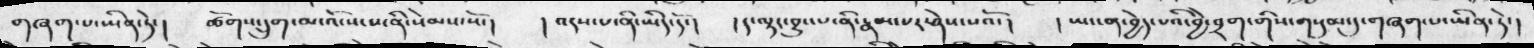གཞག་པ་ཡིན་ཏེ་།  ཚོགས་དྲུག་མ་འོངས་པ་ནི་སེམས་སོ་།  །འདས་པ་ནི་ཡིད་དོ་།  །ད་ལྟར་བྱུང་པ་ནི་རྣམ་པར་ཤེས་པའོ་།  །ཡང་ན་བྱེད་པའི་བྱེ་བྲག་གིས་གསུམ་དུ་གཞག་པ་ཡིན་ཏེ་།
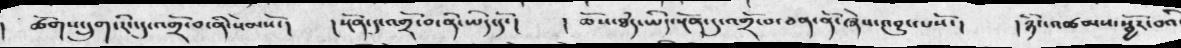།   ཚོགས་དྲུག་རིང་དུ་འགྲོ་བ་ནི་སེམསོ་།  །སྔོན་དུ་འགྲོ་བ་ནི་ཡིད་དོ་།  །ཆོས་ཐཾད་ཡིད་སྔོན་དུ་འགྲོ་བ་ཅན་ནི་ཞེས་འབྱུང་པསོ་།  །ཉིང་འཚམས་སྦྱོར་བའི
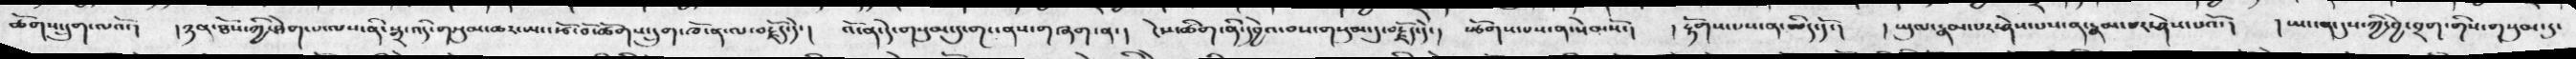ཚོགས་དྲུག་ལའོ་།  །ཉན་ཐོས་ཀྱི་ཐེག་པ་ལས་ནི་སྒྲ་འདི་གསུམ་ཆར་ཡང་རྩོ་བོ་ཚོགས་དྲུག་ཁོ་ན་ལ་བརྗོད་དེ་། འོ་ན་དེ་གསུམ་དུ་གང་ནས་གཞག་ན་། ངེས་ཚིག་གི་དབྱེ་བས་གསུམ་དུ་བརྗོད་དེ་།  སྩོགས་པས་ན་སེམསོ་། །རྟོགས་པས་ན་ཡིད་དོ་།  །ཡུལ་རྣམ་པར་ཤེས་པས་ན་རྣམ་པར་ཤེས་པའོ་།  །ཡང་ན་དུས་ཀྱི་བྱེ་བྲག་གིས་གསུམ་དུ་
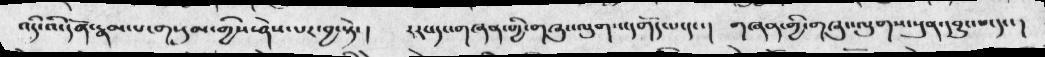འདི་འི་དོན་རྣམ་པ་གསུམ་གྱིས་ཤེས་པར་བྱ་སྟེ་།  །རང་དང་གཞན་གྱི་གཞུང་ལུགས་དགོད་པ་དང་།  གཞན་གྱི་གཞུང་ལུགས་སུན་དབྱུང་བ་དང་།
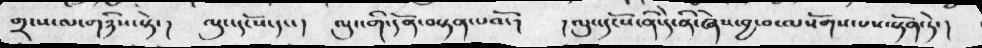གྲངས་ལ་གཉིས་སྟེ་།  ལུང་དངོས་དང་།  ལུང་གི་དོན་བསྟན་པའོ་།  །ལུང་དངོས་ནི་དེ་ནི་ཞེས་བྱ་བ་ལསོགས་པས་སྟོན་ཏེ་།
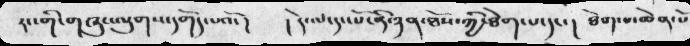རང་གི་གཞུང་ལུགས་དགོད་པའོ་།  །དེ་ལ་དང་པོ་ནི་ཉན་ཐོས་ཀྱི་ཐེག་པ་དང་།  ཐེག་པ་ཆེན་པོ
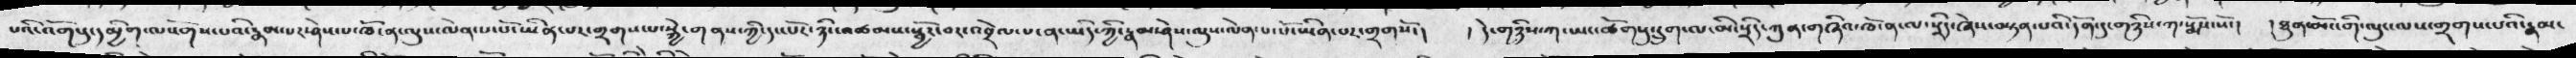པའི་འོག་དུ་དམྱིག་ལསོགས་པའི་རྣམ་པར་ཤེས་པ་ཁོ་ན་ལུས་ལེན་པ་པོ་ཡིན་པར་གྲགས་པ་སྐྱེ་གནས་ཀྱི་དང་པོར་ཉིང་འཚམས་སྦྱོར་བར་འབྲེལ་པ་ན་ཡིད་ཀྱི་རྣམ་ཤེས་ལུས་ལེན་པ་པོ་ཡིན་པར་གྲགསོ་།   ། དེ་གཉིས་ཀ་ཡང་ཚོགསུ་དྲུག་ལ་མི་སྲིད་ཀུན་གཞིའི་ཁོ་ན་ལ་སྲིད་ཞེས་བསྟན་པའི་དོན་དུ་གཉིས་ཀ་སྨོས་སོ་།  ། ཐུན་མོང་གི་ལུང་ལས་གྲགས་པའི་རྣམ་
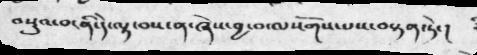བསྡུའ་བ་ནི་དེ་ལྟ་བས་ན་ཞེས་བྱ་བ་ལསོགས་པས་བསྟན་ཏེ་།
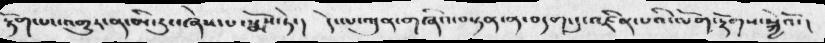རྟོག་པ་འགྱུར་ན་མི་རུང་ཞེས་པ་སྨོས་ཏེ་།  དེ་ལ་ཀུན་གཞིའ་བསྟན་ན་བདག་དུ་འཛིན་པའི་ལོག་རྟོགས་སྐྱེའོ་།
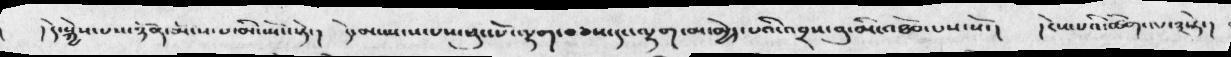།དེ་སྐྱེས་པས་ཉོན་མོངས་པ་མི་སྤོང་སྟེ་།  དེ་མ་སྤངས་པས་ཕུང་པོ་ལྷག་བཅས་དང་ལྷག་མ་མྱེད་པའི་འབྲས་བུ་མི་འཐོབ་པས་སོ་།  །ངེས་པའི་ཚིག་ལ་༣སྟེ་།
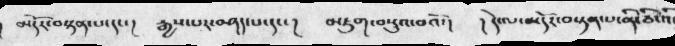མདོར་བསྟན་པ་དང་།  རྒྱས་པར་བཤད་པ་དང་།  མཇུག་བསྡུའ་བའོ་།  །དེ་ལ་མདོར་བསྟན་པ་ནི་ཅི་འི་
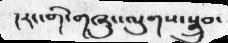།རང་གི་གཞུང་ལུགས་སྒྲུབ་
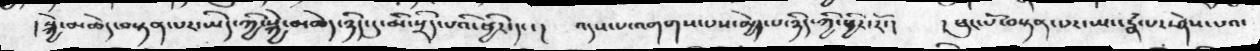།སྐྱེ་མཆེད་བསྟན་པར་ཡིད་ཀྱི་སྐྱེ་མཆེད་ཉིད་དུ་མི་སྲིད་པའི་ཕྱིར་དང་།  འདས་པ་འགག་པས་མྱེད་པ་ཉིད་ཀྱི་ཕྱིར་རོ་།  ། ཕུང་པོ་བསྟན་པར་ཡང་རྣཾ་པར་ཤེས་པའ་
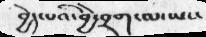བྱེད་པའི་བྱེ་བྲག་ལ་ཡང་
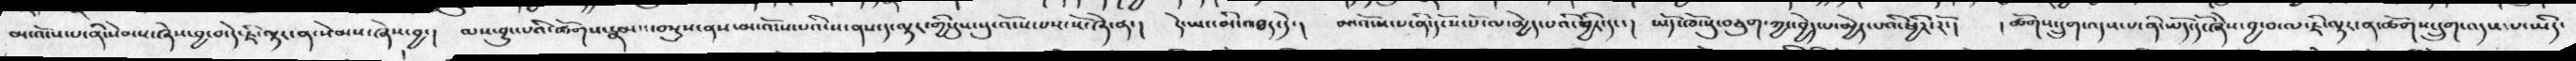མ་འོངས་པ་ནི་སེམས་ཞེས་བྱ་བ་དེ་ཇི་ལྟར་ན་སེམས་ཞེས་བྱ་།  ལས་བྱུང་པའི་ཚོགས་རྣམས་བསུས་ནས་མ་འོངས་པའི་ས་ནས་ད་ལྟར་གྱི་དུས་སུ་འོངས་པས་སོ་ཞེ་ན་།  དེ་ཡང་མི་འཐད་དེ་།  མ་འོངས་པ་ནི་དངོས་པོ་ལ་མྱེད་པའི་ཕྱིར་དང་།  ཡོད་ཁོ་སུ་བཅུག་ཀྱང་བྱེད་པ་མྱེད་པའི་ཕྱིར་རོ་།  །ཚོགས་དྲུག་འདས་པ་ནི་ཡོད་དོ་ཞེས་བྱ་བ་ལ་ཇི་ལྟར་ན་ཚོགས་དྲུག་འདས་པ་ཡིད་
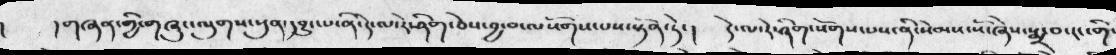།གཞན་གྱི་གཞུང་ལུགས་སུན་དབྱུང་པ་ནི་དེ་ལ་རེ་ཤིག་ཅེས་བྱ་བ་ལསོགས་པས་སྟོན་ཏེ་།  དེ་ལ་རེ་ཞིག་སོགས་པས་ནི་སེམས་སོ་ཞེས་སྨྲ་བ་རང་གི་
